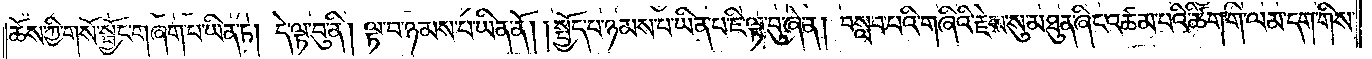ཆོས་ཀྱི་གསོ་སྦྱོང་གཞག་པ་ཡིན་ཏེ། དེ་ལྟ་བུ་ནི། ལྟ་བ་ཉམས་པ་ཡིན་ནོ། །སྤྱོད་པ་ཉམས་པ་ཡིན་པ་ཇི་ལྟ་བུ་ཞེ་ན། བསླབ་པའི་གཞིའི་རྗེས་སུ་མཐུན་ཞིང་འཚམ་པའི་ཚིག་གི་ལམ་དག་གིས་
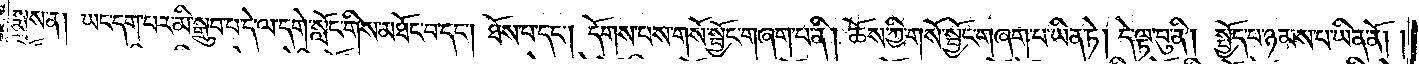སྨྲས་ན། ཡང་དག་པར་མི་སྒྲུབ་པ་དེ་ལ་དགེ་སློང་གིས་མཐོང་བ་དང༌། ཐོས་པ་དང༌། དོགས་པས་གསོ་སྦྱོང་གཞག་པ་ནི། ཆོས་ཀྱི་གསོ་སྦྱོང་གཞག་པ་ཡིན་ཏེ། དེ་ལྟ་བུ་ནི། སྤྱོད་པ་ཉམས་པ་ཡིན་ནོ། །
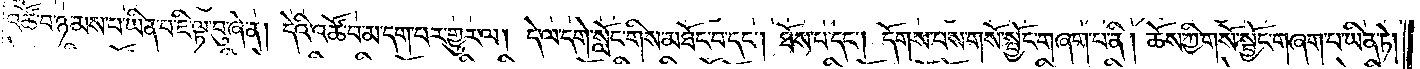འཚོ་བ་ཉམས་པ་ཡིན་པ་ཇི་ལྟ་བུ་ཞེ་ན། དེའི་འཚོ་བ་མ་དག་པར་གྱུར་ལ། དེ་ལ་དགེ་སློང་གིས་མཐོང་བ་དང༌། ཐོས་པ་དང༌། དོགས་པས་གསོ་སྦྱོང་གཞག་པ་ནི། ཆོས་ཀྱི་གསོ་སྦྱོང་གཞག་པ་ཡིན་ཏེ།
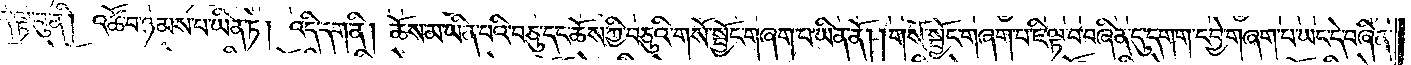དེ་ལྟ་བུ་ནི། འཚོ་བ་ཉམས་པ་ཡིན་ཏེ། འདི་དག་ནི། ཆོས་མ་ཡིན་པའི་བཅུ་དང་ཆོས་ཀྱི་བཅུའི་གསོ་སྦྱོང་གཞག་པ་ཡིན་ནོ། །གསོ་སྦྱོང་གཞག་པ་ཇི་ལྟ་བ་བཞིན་དུ་དགག་དབྱེ་གཞག་པ་ཡང་དེ་བཞིན་
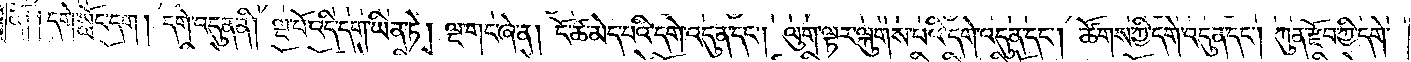ནོ། །དགེ་སློང་དག། དགེ་འདུན་ནི། ལྔ་པོ་འདི་དག་ཡིན་ཏེ། ལྔ་གང་ཞེ་ན། ངོ་ཚ་མེད་པའི་དགེ་འདུན་དང༌། ལུག་ལྟར་ལྐུགས་པའི་དགེ་འདུན་དང༌། ཚོགས་ཀྱི་དགེ་འདུན་དང༌། ཀུན་རྫོབ་ཀྱི་དགེ་
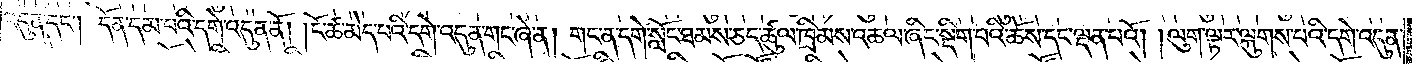འདུན་དང༌། དོན་དམ་པའི་དགེ་འདུན་ནོ། །ངོ་ཚ་མེད་པའི་དགེ་འདུན་གང་ཞེ་ན། གང་ན་དགེ་སློང་ཐམས་ཅད་ཚུལ་ཁྲིམས་འཆལ་ཞིང་སྡིག་པའི་ཆོས་དང་ལྡན་པའོ། །ལུག་ལྟར་ལྐུགས་པའི་དགེ་འདུན་
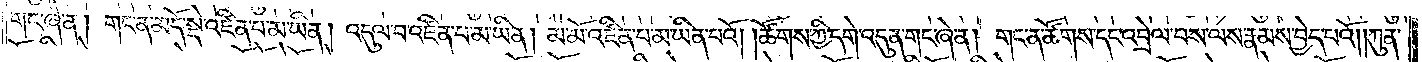གང་ཞེ་ན། གང་ན་མདོ་སྡེ་འཛིན་པ་མ་ཡིན། འདུལ་བ་འཛིན་པ་མ་ཡིན། མ་མོ་འཛིན་པ་མ་ཡིན་པའོ། །ཚོས་ཀྱི་དགེ་འདུན་གང་ཞེ་ན། གང་ན་ཚོགས་དང་འབྲེལ་བས་ལས་རྣམས་བྱེད་པའོ། །ཀུན་
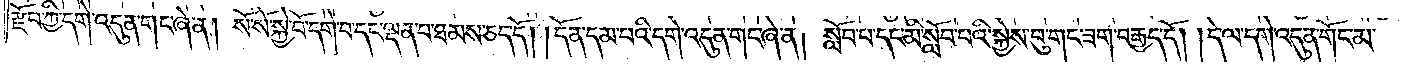རྫོབ་ཀྱི་དགེ་འདུན་གང་ཞེ་ན། སོ་སོ་སྐྱེ་བོ་དགེ་བ་དང་ལྡན་པ་ཐམས་ཅད་དོ། །དོན་དམ་པའི་དགེ་འདུན་གང་ཞེ་ན། སློབ་པ་དང་མི་སློབ་པའི་སྐྱེས་བུ་གང་ཟག་བརྒྱད་དོ། །དེ་ལ་དགེ་འདུན་གོང་མ་
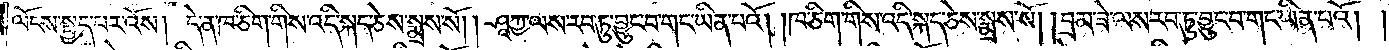ལོངས་སྤྱད་པར་འོས། དེ་ན་ཁ་ཅིག་གིས་འདི་སྐད་ཅེས་སྨྲས་སོ། །ཤཱཀྱ་ལས་རབ་ཏུ་བྱུང་བ་གང་ཡིན་པའོ། །ཁ་ཅིག་གིས་འདི་སྐད་ཅེས་སྨྲས་སོ། །བྲམ་ཟེ་ལས་རབ་ཏུ་བྱུང་བ་གང་ཡིན་པའོ༎
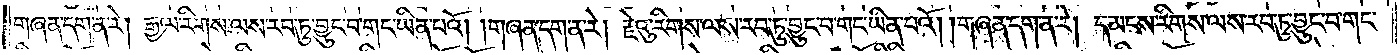གཞན་དག་ན་རེ། རྒྱལ་རིགས་ལས་རབ་ཏུ་བྱུང་བ་གང་ཡིན་པའོ། །གཞན་དག་ན་རེ། རྗེའུ་རིགས་ལས་རབ་ཏུ་བྱུང་བ་གང་ཡིན་པའོ། །གཞན་དག་ན་རེ། དམངས་རིགས་ལས་རབ་ཏུ་བྱུང་བ་གང་
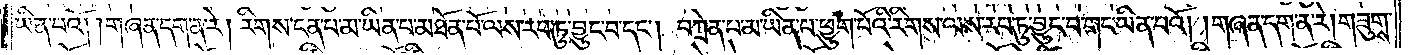ཡིན་པའོ། །གཞན་དག་ན་རེ། རིགས་ངན་པ་མ་ཡིན་པ་མཐོན་པོ་ལས་རབ་ཏུ་བྱུང་བ་དང༌། བཀྲེན་པ་མ་ཡིན་པ་ཕྱུག་པོའི་རིགས་ལས་རབ་ཏུ་བྱུང་བ་གང་ཡིན་པའོ། །གཞན་དག་ན་རེ། གཟུགས་
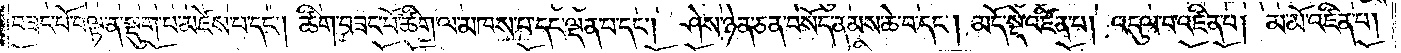བཟང་པོ་བལྟ་ན་སྡུག་པ་མཛེས་པ་དང༌། ཚིག་བཟང་པོ་ཚིག་ལ་མཁས་པ་དང་ལྡན་པ་དང༌། ཤེས་ཉེན་ཅན་བསོད་ནམས་ཆེ་བ་དང༌། མདོ་སྡེ་འཛིན་པ། འདུལ་བ་འཛིན་པ། མ་མོ་འཛིན་པ།
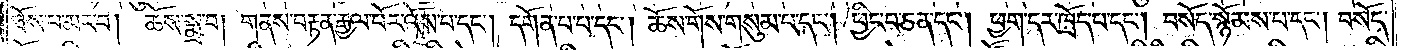ཐོས་པ་མང་བ། ཆོས་སྨྲ་བ། གནས་བརྟན་རྒྱལ་པོར་འོས་པ་དང༌། དགོན་པ་པ་དང༌། ཆོས་གོས་གསུམ་པ་དང༌། ཕྱིང་བ་ཅན་དང༌། ཕྱག་དར་ཁྲོད་པ་དང༌། བསོད་སྙོམས་པ་དང༌། བསོད་
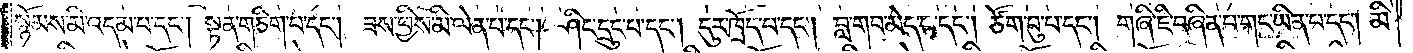སྙོམས་མི་འདམ་པ་དང༌། སྟན་གཅིག་པ་དང༌། ཟས་ཕྱིས་མི་ལེན་པ་དང༌། ཤིང་དྲུང་པ་དང༌། དུར་ཁྲོད་པ་དང༌། བླ་གབ་མེད་པ་དང༌། ཙོག་བུ་པ་དང༌། གཞི་ཇི་བཞིན་པ་གང་ཡིན་པ་དང༌། མི་
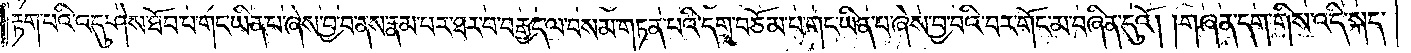རྟག་པའི་འདུ་ཤེས་ཐོབ་པ་གང་ཡིན་པ་ཞེས་བྱ་བ་ནས་རྣམ་པར་ཐར་པ་བརྒྱད་ལ་བསམ་གཏན་པའི་དགྲ་བཅོམ་པ་གང་ཡིན་པ་ཞེས་བྱ་བའི་བར་གོང་མ་བཞིན་དུའོ། །གཞན་དག་གིས་འདི་སྐད་
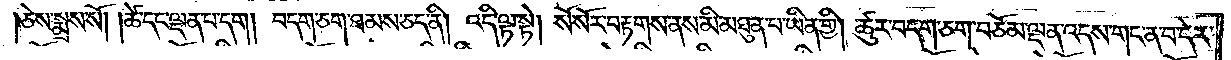།ཅེས་སྨྲས་སོ། །ཚེ་དང་ལྡན་པ་དག། བདག་ཅག་ཐམས་ཅད་ནི། འདི་ལྟ་སྟེ། སོ་སོར་བརྟགས་ནས་མི་མཐུན་པ་ཡིན་གྱི། ཚུར་བདག་ཅག་བཅོམ་ལྡན་འདས་གང་ན་བ་དེར་
